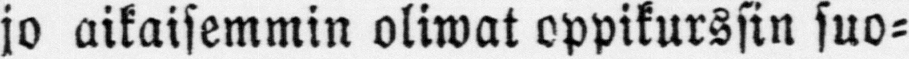jo aikaisemmin oliwat oppikurssin suo-
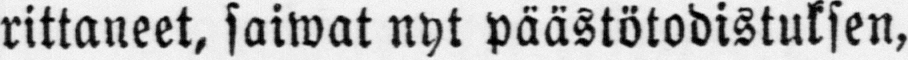rittaneet, saiwat nyt päästötodistuksen,
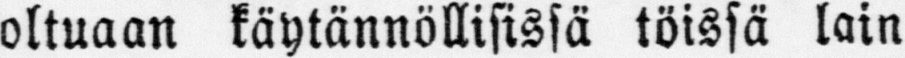oltuaan käytännöllisissä töissä lain
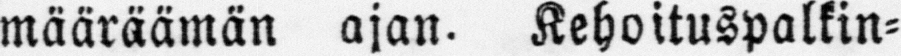määräämän ajan. Kehoituspalkin-
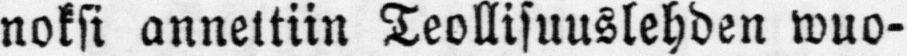noksi annettiin Teollisuuslehden wuo-
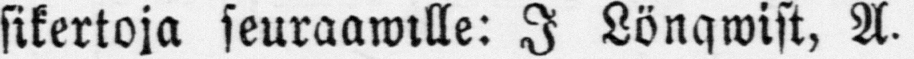sikertoja seuraawille: I Lönqwist, A.
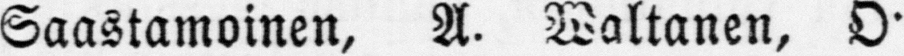Saastamoinen, A. Waltanen, O
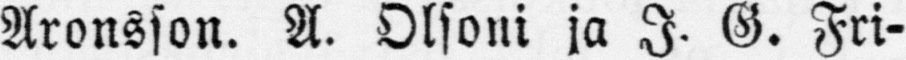Aronsson. A. Olsoni ja I. G. Fri-
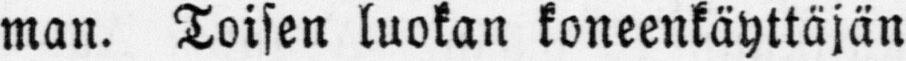man. Toisen luokan koneenkäyttäjän
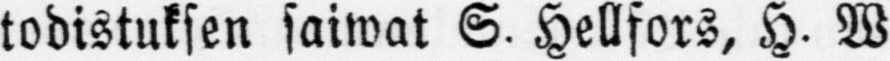todistuksen saiwat S. Hellfors, H. W.
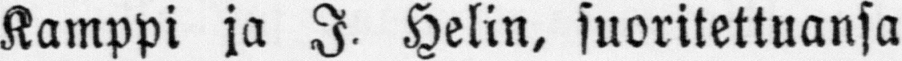Kamppi ja I. Helin, suoritettuansa
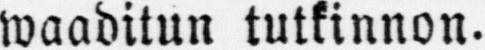waaditun tutkinnon.
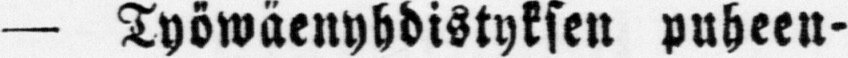— Työwäenyhdistyksen puheen-
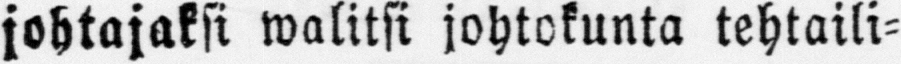johtajaksi walitsi johtokunta tehtaili-
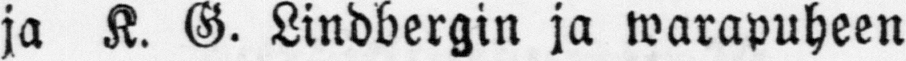ja K. G. Lindbergin ja warapuheen
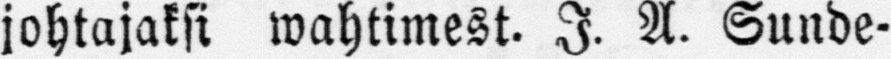johtajaksi wahtimest. I. A. Sunde-
